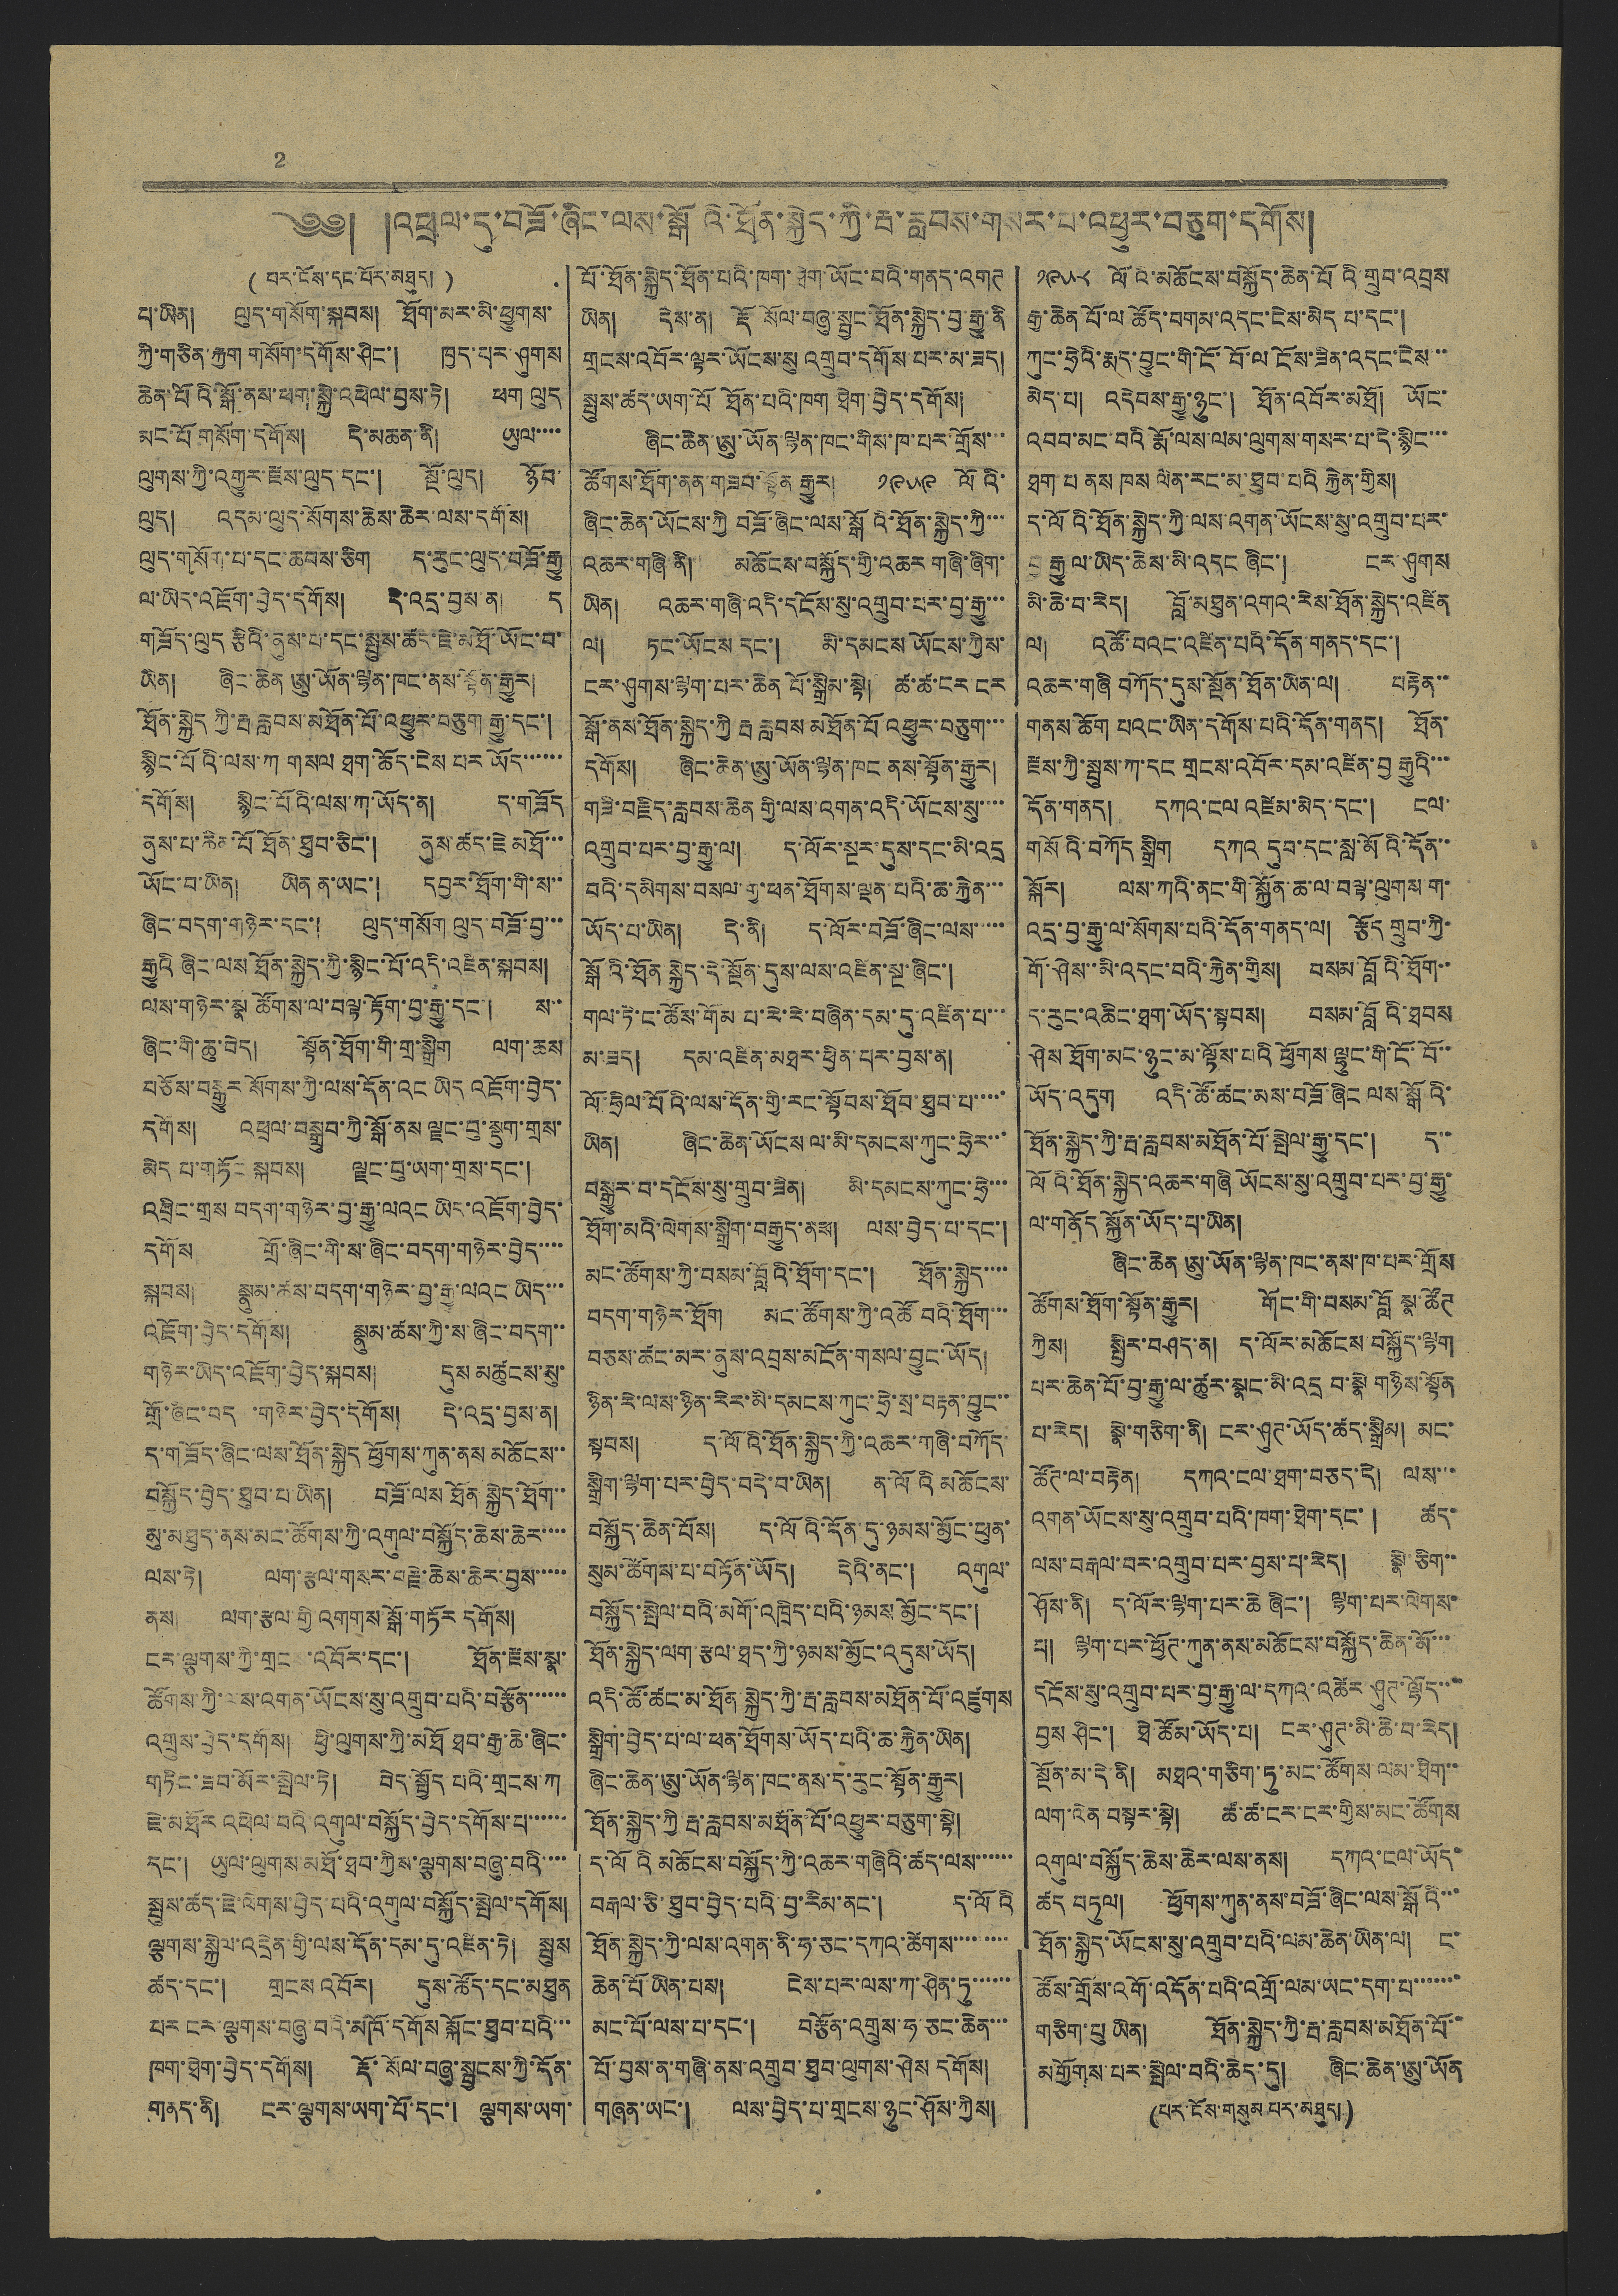2
༄༅། །འཕྲལ་དུ་བཟོ་ཞིང་ལས་སྒོའི་ཐོན་སྐྱེད་ཀྱི་རྦ་རླབས་གསར་པ་འཕྱུར་བཅུག་དགོས།
( པར་ངོས་དང་པོར་མཐུད། )
པ་ཡིན། ལུད་གསོག་སྐབས། ཐོག་མར་མི་ཕྱུགས་
ཀྱི་གཅིན་རྐྱག གསོག་དགོས་ཤིང་། ཁྱད་པར་ཤུགས
ཆེན་པོའི་སྒོ་ནས་ཕག་སྐྱེ་འཕེལ་བྱས་ཏེ། ཕག ལུད
མང་པོ གསོག་དགོས། དེ་མཆན་ནི། ཡུལ་་་་
ལུགས་ཀྱི་འགྱུར་རྫས་ལུད་དང་། སྔོ་ལུད། ཉོབ་
ལུད། འདམ་ལུད་སོགས་ཆེས་ཆེར་ལས་དགོས།
ལུད་གསོག་པ་དང་ཆབས་ཅིག ད་རུང་ལུད་བཟོ་རྒྱུ
ལ་ཡིད་འཇོག་བྱེད་དགོས། དེ་འདྲ་བྱས་ན། ད
གཟོད་ལུད རྩིའི་ནུས་པ་དང་སྤུས་ཚད་ཇེ་མཐོ་ཡོང་བ་
ཡིན། ཞིང་ཆེན ཨུ་ཡོན་ལྷན་ཁང་ནས་སྟོན་རྒྱུར།
ཐོན་སྐྱེད ཀྱི་རྦ རླབས་མཐོན་པོ་འཕྱུར་བཅུག རྒྱུ་དང་།
སྙིང་པོའི་ལས་ཀ གསལ ཐག་ཆོད་ངེས པར ཡོད་་་་་་
དགོས། སྙིང་པོའི་ལས་ཀ་ཡོད་ན། ད་གཟོད
ནུས་པ་ཆིན་པོ ཐོན་ཐུབ་ཅིང་། ནུས་ཚད་ཇེ མཐོ་་་
ཡོང་བ་ཡིན། ཡིན ན་ཡང་། དབྱར་ཐོག་གི་ས་་
ཞིང་བདག་གཉེར་དང་། ལུད་གསོག ལུད་བཟོ་བྱ་་་
རྒྱུའི ཞིང་ལས ཐོན་སྐྱེད་ཀྱི་སྙིང་པོ་འདི་འཛིན་སྐབས།
ལས་གཉེར་སྣ ཚོགས་ལ་བལྟ་རྟོག་བྱ་རྒྱུ་དང་། ས་་
ཞིང་གི་ཆུ་བེད། སྟོན་ཐོག་གི་གྲ་སྒྲིག ལག་ཆས
བཅོས་བསྒྱུར སོགས་ཀྱི་ལས་དོན་འང ཡིད འཇོག་བྱེད་
དགོས། འཕྲལ་བསྒྲུབ་ཀྱི་སྒོ་ནས ལྗང་བུ་སྡུག་གྲས་
མེད པ་གཏོང སྐབས། ལྗང་བུ་ཡག་གྲས་དང་།
འབྲིང་གྲས བདག་གཉེར་བྱ་རྒྱུ་ལའང ཡིད་འཇོག་བྱེད་
དགོས གྲོ་ཞིང་གི་ས་ཞིང་བདག་གཉེར་བྱེད་་་་
སྐབས། སྣུམ་ཚས་བདག་གཉེར་བྱ་རྒྱུ་ལའང ཡིད་་་
འཇོག་བྱེད་དགོས། སྣུམ་ཚས་ཀྱི་ས་ཞིང་བདག་་
གཉེར་ཡིད་འཇོག་བྱེད་སྐབས། དུས མཚུངས་སུ་
གྲོ་ཞིང་བདག་གཉེར་བྱེད་དགོས། དེ་འདྲ་བྱས་ན།
ད་གཟོད་ཞིང་ལས་ཐོན་སྐྱེད ཕྱོགས་ཀུན་ནས མཆོངས་་
བསྐྱོད་བྱེད་ཐུབ་པ་ཡིན། བཟོ་ལས ཐོན སྐྱེད་ཐོག་་
མུ་མཐུད་ནས་མང་ཚོགས་ཀྱི་འགུལ་བསྐྱོད་ཆེས་ཆེར་་་་
ལས་ཏེ། ལག་རྩལ་གསར་བརྗེ་ཆེས་ཆེར་བྱས་་་་་
ནས། ལག་རྩལ གྱི འགགས་སྒོ་གཏོར དགོས།
ངར་ལྕགས་ཀྱི་གྲངས་འབོར་དང་། ཐོན་རྫས་སྣ་
ཚོགས་ཀྱི་ལས་འགན་ཡོངས་སུ་འགྲུབ་པའི་བརྩོན་་་་་་
འགྲུས་བྱེད་དགོས། ཕྱི་ལུགས་ཀྱི་མཐོ ཐབ་རྒྱ་ཆེ་ཞིང་
གཏིང་ཟབ་མོར་སྤེལ་ཏེ། བེད་སྤྱོད པའི་གྲངས་ཀ
ཇེ་མཐོར འཕེལ བའི་འགུལ་བསྐྱོད་བྱེད་དགོས་པ་་་་་་
དང་། ཡུལ་ལུགས་མཐོ་ཐབ་ཀྱིས་ལྕགས་བཞུ་བའི་་་་
སྦུས་ཚད་ཇེ་ལེགས་བྱེད་པའི་འགུལ་བསྐྱོད་སྤེལ་དགོས།
ལྕགས་སྐྱེལ་འདྲེན་གྱི་ལས་དོན་དམ་དུ་འཛིན་ཏེ། སྦུས
ཚད་དང་། གྲངས འབོར། དུས་ཚོད་དང་མཐུན
པར ངར་ལྕགས་བཞུ་བའི་མཁོ་དགོས སྐོང་ཐུབ་པའི་་་
ཁག་ཐེག་བྱེད་དགོས། རྡོ་སོལ་བཞུ་སྦྱངས་ཀྱི་དོན་
གནད་ནི། ངར་ལྕགས་ཡག་པོ་དང་། ལྕགས་ཡག་
པོ་ཐོན་སྐྱེད་ཐོན་པའི་ཁག་ཐེག་ཡོང་བའི་གནད་འགཊ
ཡིན། དེས་ན། རྡོ སོལ་བཞུ་སྦྱང་ཐོན་སྐྱེད་བྱ་རྒྱུ་ནི
གྲངས་འབོར་ལྟར་ཡོངས་སུ འགྲུབ་དགོས པར་མ་ཟད།
སྤུས་ཚད་ཡག་པོ ཐོན་པའི་ཁག ཐེག་བྱེད་དགོས།
ཞིང་ཆེན་ཨུ་ཡོན་ལྷན་ཁང་གིས་ཁ་པར་གྲོས་་་
ཚོགས་ཐོག་ནན་གཟབ་སྟོན་རྒྱུར། ༡༩༥༩ ལོའི་
ཞིང་ཆེན་ཡོངས་ཀྱི བཟོ་ཞིང་ལས་སྒོའི་ཐོན་སྐྱེད་ཀྱི་་་
འཆར་གཞི་ནི། མཆོངས་བསྐྱོད་གྱི་འཆར གཞི་ཞིག་
ཡིན། འཆར་གཞི་འདི་དངོས་སུ་འགྲུབ་པར་བྱ་རྒྱུ་་་
ལ། ཏང་ཡོངས དང་། མི་དམངས ཡོངས་ཀྱིས་
ངར་ཤུགས་ལྷག་པར་ཆེན པོ་སྒྲིམ་སྟེ། ཚ་ཚ་ངར ངར
སྒོ་ནས་ཐོན་སྐྱེད་ཀྱི རྦ རླབས མཐོན་པོ འཕྱུར་བཅུག་་་
དགོས། ཞིང་ཆེན་ཨུ་ཡོན་ལྷན་ཁང ནས་སྟོན་རྒྱུར།
གཟི་བརྗིད་རླབས་ཆེན གྱི་ལས་འགན་འདི་ཡོངས་སུ་་་་
འགྲུབ་པར་བྱ་རྒྱུ་ལ། ད་ལོར་སྔར་དུས་དང་མི་འདྲ
བའི་དམིགས་བསལ་གྱི་ཕན་ཐོགས་ལྔན་པའི་ཆ་རྐྱེན་་་
ཡོད་པ་ཡིན། དེ་ནི། ད་ལོར་བཟོ་ཞིང་ལས་་་་་
སྒོའི་ཐོན་སྐྱེད་དེ་སྔོན་དུས་ལས་འཛིན་སྔ་ཞིང་།
གལ་ཏི་ང་ཚོས་གོམ་པ་རེ་རེ་བཞིན་དམ་དུ་འཛིན་པ་་་
མ་ཟད། དམ་འཛིན་མཐར་ཕྱིན་པར་བྱས་ན།
ལོ་ཧྲིལ་པོའི་ལས་དོན་གྱི་རང་སྟོབས་ཐོབ་ཐུབ་པ་་་་་
ཡིན། ཞིང་ཆེན་ཡོངས ལ་མི་དམངས་ཀུང་ཧྲེར་་་
བསྒྱུར་བ་དངོས་སུ་གྲུབ་ཟིན། མི་དམངས་ཀུང་ཧྲེ་་་
ཐོག་མའི་ལེགས་སྒྲིག་བརྒྱུད་ནས། ལས་བྱེད་པ་དང་།
མང་ཚོགས་ཀྱི་བསམ་བློའི་ཐོག་དང་། ཐོན་སྐྱེད་་་་
བདག་གཉེར་ཐོག མང་ཚོགས་ཀྱི་འཚོ བའི་ཐོག་་་
བཅས་ཚང་མར་ནུས་འབྲས་མངོན་གསལ་བྱུང་ཡོད།
ཉིན་རེ་ལས་ཉིན་རེར་མི་དམངས་ཀུང་ཧྲེ་སྲ་བརྟན་བྱུང་་
སྟབས། ད་ལོའི་ཐོན་སྐྱེད་ཀྱི་འཆར་གཞི་བཀོད་
སྒྲིག་ལྷག་པར་བྱེད་བདེ་བ་ཡིན། ན་ལོའི མཆོངས་
བསྐྱོད་ཆེན་པོས། ད་ལོའི་དོན་དུ་ཉམས་མྱོང་ཕུན་
སུམ་ཚོགས་པ་བཏོན་ཡོད། དེའི་ནང་། འགུལ་
བསྐྱོད་སྤེལ་བའི་མགོ་འཁྲིད་པའི་ཉམས མྱོང་དང་།
ཐོན་སྐྱེད་ལག་རྩལ་ཐད་ཀྱི་ཉམས་མྱོང་འདུས་ཡོད།
འདི་ཚོ་ཚང་མ་ཐོན་སྐྱེད་ཀྱི་རྦ་རླབས་མཐོན་པོ་འཛུགས
སྒྲིག་བྱེད་པ་ལ་ཕན་ཐོགས་ཡོད་པའི་ཆ་རྐྱེན་ཡིན།
ཞིང་ཆེན་ཨུ་ཡོན་ལྷན་ཁང་ནས་ད་རུང་སྟོན་རྒྱུར།
ཐོན་སྐྱེད་ཀྱི་རྦ་རླབས་མཐོན་པོ་འཕྱུར་བཅུག་སྟེ།
ད་ལོའི མཆོངས་བསྐྱོད་ཀྱི་འཆར་གཞིའི་ཚད་ལས་་་་་་
བརྒལ་ཅི་ཐུབ་བྱེད་པའི་བྱ་རིམ་ནང་། ད་ལོའི
ཐོན་སྐྱེད་ཀྱི་ལས་འགན་ནི་ཧ་ཅང་དཀའ་ཚེགས་་་་་་་་
ཆེན་པོ་ཡིན་པས། ངེས་པར་ལས་ཀ་ཤིན་ཏུ་་་་་་
མང་པོ་ལས་པ་དང་། བརྩོན་འགྲུས་ཧ་ཅང་ཆེན་་་
པོ་བྱས་ན་གཞི་ནས་འགྲུབ་ཐུབ་ལུགས་ཤེས དགོས།
གཞན་ཡང་། ལས་བྱེད་པ་གྲངས་ཉུང་ཤོས་ཀྱིས།
༡༩༥༨ ལོའི་མཆོངས་བསྐྱོད་ཆེན་པོའི་གྲུབ་འབྲས
རྒྱ་ཆེན པོ་ལ ཚོད་བགམ་འདང་ངེས་མེད པ་དང་།
ཀུང་ཧྲེའི་རྨད་བྱུང་གི་ངོ་བོ་ལ ངོས་ཟིན་འདང་ངེས་་་
མེད་པ། འདེབས་རྒྱུ་ཉུང་། ཐོན་འབོར་མཐོ། ཡོང་
འབབ་མང་བའི རྨོ་ལས་ལམ་ལུགས་གསར་པ་དེ་སྙིང་་་
ཐག པ ནས ཁས ལེན་རང་མ་ཐུབ་པའི རྐྱེན་གྱིས།
ད་ལོའི་ཐོན་སྐྱེད་ཀྱི་ལས་འགན་ཡོངས་སུ་འགྲུབ་པར་
བྱ་རྒྱུ ལ་ཡིད་ཆེས་མི་འདང ཞིང་། ངར་ཤུགས
མི་ཆེ་བ་རེད། བློ་མཐུན་འགའ་རེས་ཐོན་སྐྱེད་འཛིན
ལ། འཚོ་བའང་འཛིན་པའི་དོན་གནད་དང་།
འཆར་གཞི བཀོད་དུས་སྔོན་ཐོན་ཡིན་ལ། བརྟེན་་
གནས ཆོག པའང་ཡིན་དགོས་པའི་དོན་གནད། ཐོན་
རྫས་ཀྱི་སྤུས་ཀ་དང གྲངས་འབོར་དམ་འཛིན་བྱ རྒྱུའི་་་
དོན་གནད། དཀའ་ངལ འཛེམ་མེད་དང་། ངལ་
གསོའི་བཀོད སྒྲིག དཀའ དུབ་དང་སླ་མོའི་དོན་་
སྐོར། ལས་ཀའི་ནང་གི་སྐྱོན་ཆ་ལ་བལྟ་ལུགས་ག་
འདྲ་བྱ་རྒྱུ་ལ་སོགས་པའི་དོན་གནད་ལ། རྩོད གྲུབ་ཀྱི་
གོ་ཤེས་་མི་འདང་བའི་རྐྱེན་གྱིས། བསམ་བློའི་ཐོག་་
ད་རུང་འཆིང་ཐག་ཡོད་སྟབས། བསམ་བློའི་ཐབས
ཤེས ཐོག་མང་ཉུང་མ་ལྟོས་པའི ཕྱོགས ལྷུང་གི་ངོ་བོ་་
ཡོད་འདུག འདི་ཚོ་ཚང་མས་བཟོ་ཞིང ལས་སྒོའི་
ཐོན་སྐྱེད་ཀྱི་རྦ་རླབས་མཐོན་པོ་སྤེལ་རྒྱུ་དང་། ད་་
ལོའི་ཐོན་སྐྱེད་འཆར་གཞི ཡོངས་སུ་འགྲུབ་པར་བྱ་རྒྱུ་
ལ་གནོད སྐྱོན་ཡོད་པ་ཡིན།
ཞིང་ཆེན ཨུ་ཡོན་ལྷན་ཁང་ནས་ཁ་པར་གྲོས
ཚོགས་ཐོག་སྟོན་རྒྱུར། གོང་གི་བསམ་བློ སྣ་ཚོཊ
ཀྱིས། སྤྱིར་བཤད་ན། ད་ལོར་མཆོངས་བསྐྱོད་ལྷག
པར་ཆེན་པོ་བྱ་རྒྱུ་ལ་ཚུར་སྣང་མི་འདྲ བ་སྣེ གཉིས་སྟོན
པ་རེད། སྣེ་གཅིག་ནི། ངར་ཤུཊ་ཡོད་ཚད་སྒྲིམ། མང་
ཚོཊ་ལ་བརྟེན། དཀའ་ངལ་ཐག་བཅད་དེ། ལས་་་
འགན་ཡོངས་སུ་འགྲུབ་པའི་ཁག་ཐེག་དང་། ཚད་
ལས་བརྒལ་བར་འགྲུབ་པར་བྱས་པ་རེད། སྣེ་ཅིག་་
ཤོས་ནི། ད་ལོར་ལྷག་པར་ཆེ ཞིང་། ལྷག་པར་ལེགས་
པ། ལྷག་པར་ཕྱོཊ་ཀུན་ནས་མཆོངས་བསྐྱོད་ཆེན་མོ་་་
དངོས་སུ་འགྲུབ་པར་བྱ་རྒྱུ་ལ་དཀའ་འཚེར་ཤུཊ་ལྷོད་་་་
བྱས ཤིང་། ཐེ་ཚོམ་ཡོད་པ། ངར་ཤུཊ་མི་ཆེ་བ་རེད།
སྔོན་མ་དེ་ནི། མཐའ་གཅིག་ཏུ་མང་ཚོགས་ལམ་ཐིག་་
ལག་ལེན བསྟར་སྟེ། ཚ་ཚ་ངར་ངར་གྱིས་མང་ཚོགས
འགུལ་བསྐྱོད་ཆེས་ཆེར་ལས་ནས། དཀའ་ངལ་ཡོད་
ཚད བཏུལ། ཕྱོགས་ཀུན་ནས་བཟོ་ཞིང་ལས་སྒོའི་་་
ཐོན་སྐྱེད་ཡོངས་སུ་འགྲུབ་པའི་ལམ་ཆེན་ཡིན་ལ། ང་
ཚོས་གྲོས་འགོ་འདོན་པའི་འགྲོ་ལམ་ཡང་དག་པ་་་་་་་
གཅིག་པུ ཡིན། ཐོན་སྐྱེད་ཀྱི་རྦ་རླབས་མཐོན་པོ་་
མགྱོགས་པར་སྤེལ་བའི་ཆེད་དུ། ཞིང་ཆེན་ཨུ་ཡོན
(པར་ངོས་གསུམ པར་མཐུད།)
